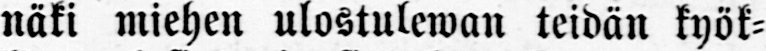näki miehen ulostulewan teidän kyök-
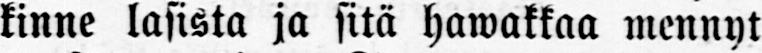kinne lasista ja sitä hawakkaa mennyt
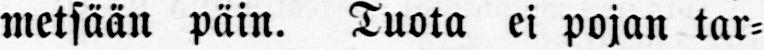metsään päin. Tuota ei pojan tar-
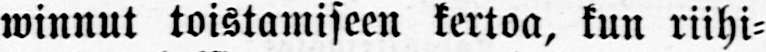winnut toistamiseen kertoa, kun riihi-
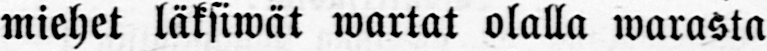miehet läksiwät wartat olalla warasta
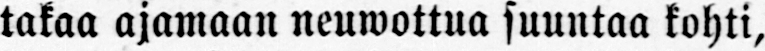takaa ajamaan neuwottua suuntaa kohti,
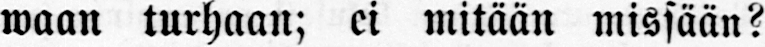waan turhaan; ei mitään missään?
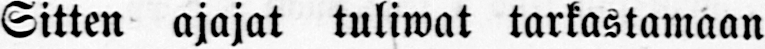Sitten ajajat tuliwat tarkastamaan
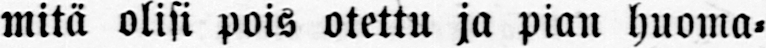mitä olisi pois otettu ja pian huoma-
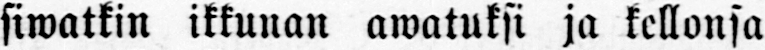siwatkin ikkunan awatuksi ja kellonsa
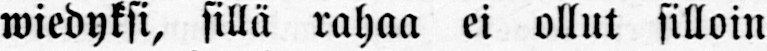wiedyksi, sillä rahaa ei ollut silloin
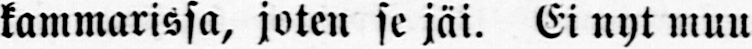kammarissa, joten se jäi. Ei nyt muu-
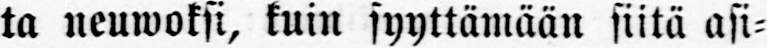ta neuwoksi, kuin syyttämään siitä asi-
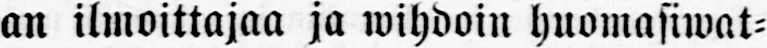an ilmoittajaa ja wihdoin huomasiwat-
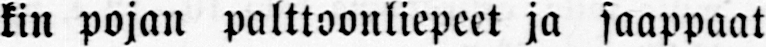kin pojan palttoonliepeet ja saappaat
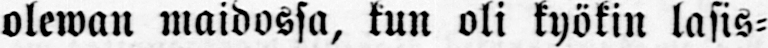olewan maidossa, kun oli kyökin lasis-
